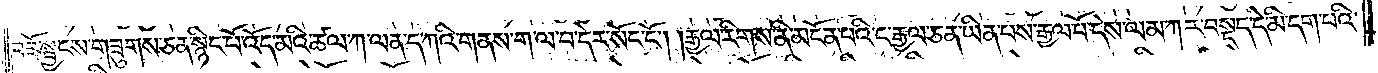བཟོ་སྦྱངས་གཟུགས་ཅན་སྙིང་པོ་འོད་མའི་ཚལ་ཀ་ལན་ད་ཀའི་གནས་ག་ལ་བ་དེར་སོང་ངོ༌། །རྒྱལ་རིགས་ནི་མངོན་པའི་ང་རྒྱལ་ཅན་ཡིན་པས་རྒྱལ་པོ་དེས་ལམ་ཀར་བསྡད་དེ་མི་དག་པའི་
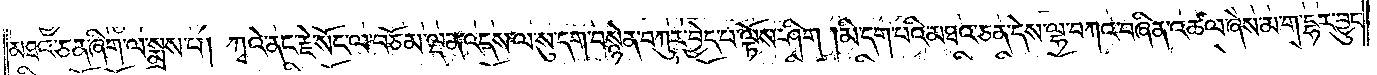མཐའ་ཅན་ཞིག་ལ་སྨྲས་པ། ཀྭའེ་ནང་རྗེ་སོང་ལ་བཅོམ་ལྡན་འདས་ལ་སུ་དག་བསྙེན་བཀུར་བྱེད་པ་ལྟོས་ཤིག །མི་དག་པའི་མཐའ་ཅན་དེས་ལྷ་བཀའ་བཞིན་འཚལ་ཞེས་མ་ག་དྷར་བྱུང་
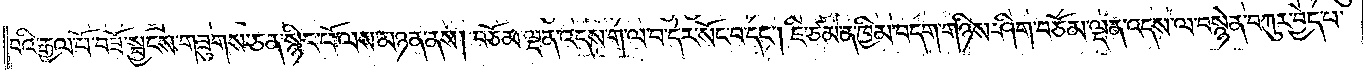བའི་རྒྱལ་པོ་བཟོ་སྦྱངས་གཟུགས་ཅན་སྙིང་པོ་ལས་མཉན་ནས། བཅོམ་ལྡན་འདས་ག་ལ་བ་དེར་སོང་བ་དང༌། ཇི་ཙམ་ན་ཁྱིམ་བདག་གཉིས་ཤིག་བཅོམ་ལྡན་འདས་ལ་བསྙེན་བཀུར་བྱེད་པ་
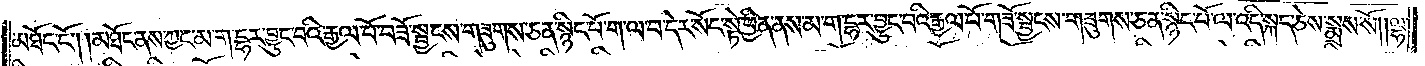མཐོང་ངོ༌། །མཐོང་ནས་ཀྱང་མ་ག་དྷར་བྱུང་བའི་རྒྱལ་པོ་བཟོ་སྦྱངས་གཟུགས་ཅན་སྙིང་པོ་ག་ལ་བ་དེར་སོང་སྟེ་ཕྱིན་ནས་མ་ག་དྷར་བྱུང་བའི་རྒྱལ་པོ་གཟོ་སྦྱངས་གཟུགས་ཅན་སྙིང་པོ་ལ་འདི་སྐད་ཅེས་སྨྲས་སོ། །ལྷ་
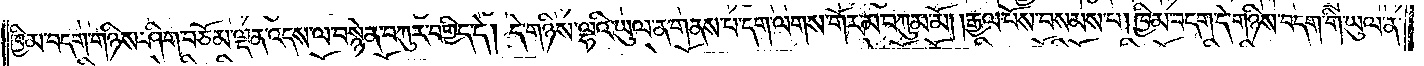ཁྱིམ་བདག་གཉིས་ཤིག་བཅོམ་ལྡན་འདས་ལ་བསྙེན་བཀུར་བགྱིད་དེ། དེ་གཉིས་ལྷའི་ཡུལ་ན་གནས་པ་དག་ལགས་གོར་མ་བཀུམ་མོ། །རྒྱལ་པོས་བསམས་པ། ཁྱིམ་བདག་དེ་གཉིས་བདག་གི་ཡུལ་ན་
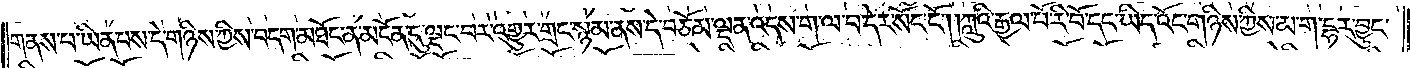གནས་པ་ཡིན་པས་དེ་གཉིས་ཀྱིས་བདག་མཐོང་ན་མངོན་དུ་ལྡང་བར་འགྱུར་གྲང་སྙམ་ནས་དེ་བཅོམ་ལྡན་འདས་ག་ལ་བ་དེར་སོང་ངོ༌། །ཀླུའི་རྒྱལ་པོ་རི་བོ་དང་ཡིད་འོང་གཉིས་ཀྱིས་མ་ག་དྷར་བྱུང་
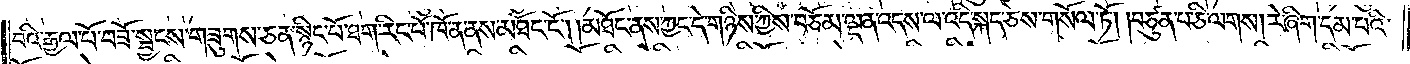བའི་རྒྱལ་པོ་བཟོ་སྦྱངས་གཟུགས་ཅན་སྙིང་པོ་ཐག་རིང་པོ་ཁོ་ན་ནས་མཐོང་ངོ༌། །མཐོང་ནས་ཀྱང་དེ་གཉིས་ཀྱིས་བཅོམ་ལྡན་འདས་ལ་འདི་སྐད་ཅེས་གསོལ་ཏོ། །བཙུན་པ་ཅི་ལགས། རེ་ཞིག་དམ་པའི་
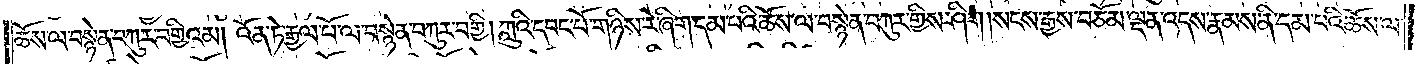ཆོས་ལ་བསྙེན་བཀུར་བགྱིའམ། འོན་ཏེ་རྒྱལ་པོ་ལ་བསྙེན་བཀུར་བགྱི། ཀླུའི་དབང་པོ་གཉིས་རེ་ཞིག་དམ་པའི་ཆོས་ལ་བསྙེན་བཀུར་གྱིས་ཤིག །སངས་རྒྱས་བཅོམ་ལྡན་འདས་རྣམས་ནི་དམ་པའི་ཆོས་ལ་
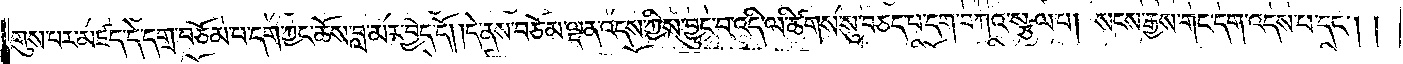གུས་པར་མཛད་དེ་དགྲ་བཅོམ་པ་དག་ཀྱང་ཆོས་བླ་མར་བྱེད་དོ། །དེ་ནས་བཅོམ་ལྡན་འདས་ཀྱིས་བྱུང་བ་འདི་ལ་ཚིགས་སུ་བཅད་པ་དག་བཀའ་སྩལ་པ། སངས་རྒྱས་གང་དག་འདས་པ་དང༌། །
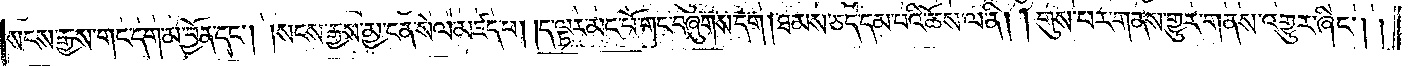སངས་རྒྱས་གང་དག་མ་བྱོན་དང༌། །སངས་རྒྱས་མྱ་ངན་སེལ་མཛད་པ། །ད་ལྟར་མང་པོ་གང་བཞུགས་དག །ཐམས་ཅད་དམ་པའི་ཆོས་ལ་ནི། །གུས་པར་གནས་གྱུར་གནས་འགྱུར་ཞིང༌། །
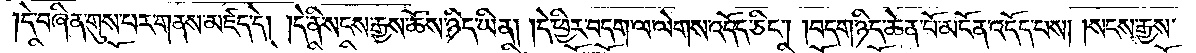དེ་བཞིན་གུས་པར་གནས་མཛད་དེ། །དེ་ནི་སངས་རྒྱས་ཆོས་ཉིད་ཡིན། །དེ་ཕྱིར་བདག་ལ་ལེགས་འདོད་ཅིང༌། །བདག་ཉིད་ཆེན་པོ་མངོན་འདོད་པས། །སངས་རྒྱས་
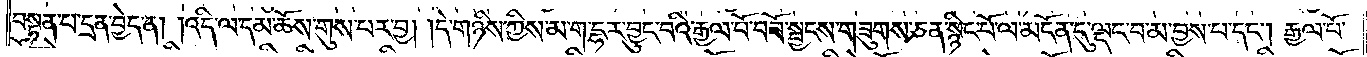བསྟན་པ་དྲན་བྱེད་ན། །འདི་ལ་དམ་ཆོས་གུས་པར་བྱ། །དེ་གཉིས་ཀྱིས་མ་ག་དྷར་བྱུང་བའི་རྒྱལ་པོ་བཟོ་སྦྱངས་གཟུགས་ཅན་སྙིང་པོ་ལ་མངོན་དུ་ལྡང་བ་མ་བྱས་པ་དང༌། རྒྱལ་པོ་
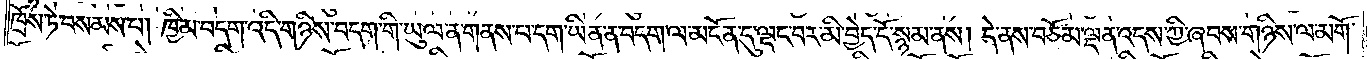ཁྲོས་ཏེ་བསམས་པ། ཁྱིམ་བདག་འདི་གཉིས་བདག་གི་ཡུལ་ན་གནས་པ་དག་ཡིན་ན་བདག་ལ་མངོན་དུ་ལྡང་བར་མི་བྱེད་དོ་སྙམ་ནས། དེ་ནས་བཅོམ་ལྡན་འདས་ཀྱི་ཞབས་གཉིས་ལ་མགོ་
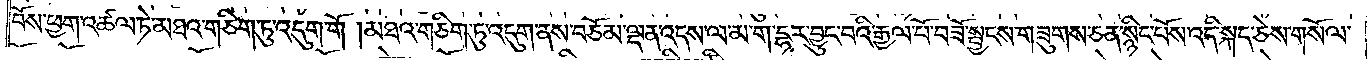བོས་ཕྱག་འཚལ་ཏེ་མཐའ་གཅིག་ཏུ་འདུག་གོ །མཐའ་གཅིག་ཏུ་འདུག་ནས་བཅོམ་ལྡན་འདས་ལ་མ་ག་དྷར་བྱུང་བའི་རྒྱལ་པོ་བཟོ་སྦྱངས་གཟུགས་ཅན་སྙིང་པོས་འདི་སྐད་ཅེས་གསོལ་
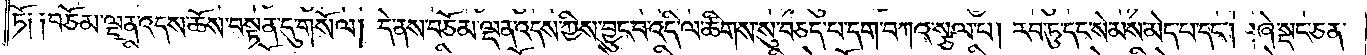ཏོ༑ ༑བཅོམ་ལྡན་འདས་ཆོས་བསྟན་དུ་གསོལ། དེ་ནས་བཅོམ་ལྡན་འདས་ཀྱིས་བྱུང་བ་འདི་ལ་ཚིགས་སུ་བཅད་པ་དག་བཀའ་སྩལ་པ། རབ་ཏུ་དང་སེམས་མེད་པ་དང༌། །ཞེ་སྡང་ཅན་
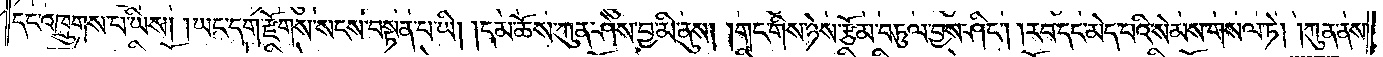དང་འཁྲུགས་པ་ཡིས། །ཡང་དག་རྫོགས་སངས་བསྟན་པ་ཡི། །དམ་ཆོས་ཀུན་ཤེས་བྱ་མི་ནུས། །གང་གིས་ཉེས་རྩོམ་བཏུལ་བྱས་ཤིང༌། །རབ་དང་མེད་པའི་སེམས་གསལ་ཏེ། །ཀུན་ནས་
